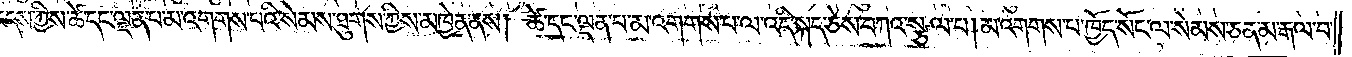འདས་ཀྱིས་ཚེ་དང་ལྡན་པ་མ་འགགས་པའི་སེམས་ཐུགས་ཀྱིས་མཁྱེན་ནས། ཚེ་དང་ལྡན་པ་མ་འགགས་པ་ལ་འདི་སྐད་ཅེས་བཀའ་སྩལ་པ། མ་འགགས་པ་ཁྱོད་སོང་ལ་སེམས་ཅན་མ་རྒལ་བ་
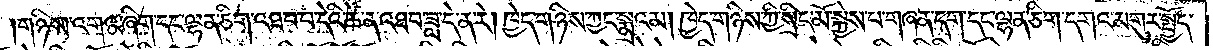གཉིས་འགའ་ཞིག་དང་ལྷན་ཅིག་འཐབ་པ་དེའི་ཚེ་ན་འཐབ་ཟླ་དེ་ན་རེ། ཁྱེད་གཉིས་ཀྱང་སྨྲའམ། ཁྱེད་གཉིས་ཀྱི་སྲིང་མོ་སྐྱེས་པ་གཞན་དག་དང་ལྷན་ཅིག་དགའ་མགུར་སྤྱོད་
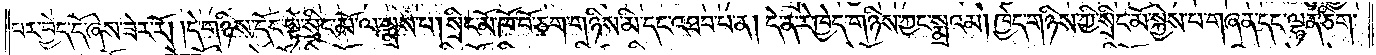པར་བྱེད་དོ་ཞེས་ཟེར་རོ། །དེ་གཉིས་དོང་སྟེ་སྲིང་མོ་ལ་སྨྲས་པ། སྲིང་མོ་ཁོ་བོ་ཅག་གཉིས་མི་དང་འཐབ་པ་ན། དེ་ན་རེ་ཁྱེད་གཉིས་ཀྱང་སྨྲའམ། ཁྱེད་གཉིས་ཀྱི་སྲིང་མོ་སྐྱེས་པ་གཞན་དང་ལྷན་ཅིག་
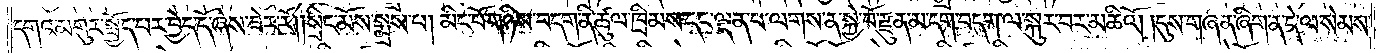དགའ་མགུར་སྤྱོད་པར་བྱེད་དོ་ཞེས་ཟེར་རོ། །སྲིང་མོས་སྨྲས་པ། མིང་པོ་གཉིས་བདག་ནི་ཚུལ་ཁྲིམས་དང་ལྡན་པ་ལགས་ན་སྐྱེ་བོ་རྫུན་མ་དག་བདག་ལ་སྐུར་བར་མཆིའོ། །དུས་གཞན་ཞིག་ན་དེ་ལ་སེམས་
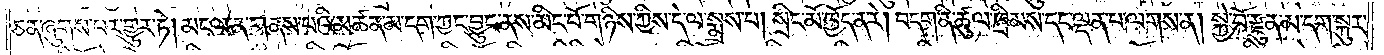ཅན་ཞུགས་པར་གྱུར་ཏེ། མངལ་ན་གནས་པའི་མཚན་མ་དག་ཀྱང་བྱུང་ནས་མིང་པོ་གཉིས་ཀྱིས་དེ་ལ་སྨྲས་པ། སྲིང་མོ་ཁྱོད་ན་རེ། བདག་ནི་ཚུལ་ཁྲིམས་དང་ལྡན་པ་ལགས་ན། སྐྱེ་བོ་རྫུན་མ་དག་སྐུར་
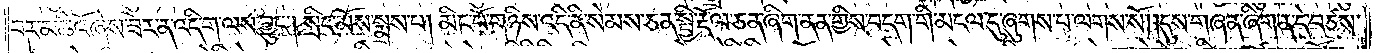བར་མཆིའོ་ཞེས་ཟེར་ན་འདི་ག་ལས་བྱུང༌། སྲིང་མོས་སྨྲས་པ། མིང་པོ་གཉིས་འདི་ནི་སེམས་ཅན་སྤྱི་རྡོལ་ཅན་ཞིག་ནན་གྱིས་བདག་གི་མངལ་དུ་ཞུགས་པ་ལགས་སོ། །དུས་གཞན་ཞིག་ན་དེ་བཙས་
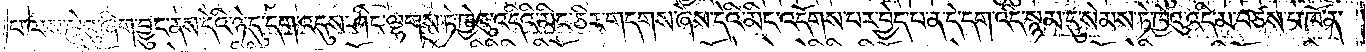པ་ལས་ཁྱེའུ་ཞིག་བྱུང་ནས་དེའི་ཉེ་དུ་དག་འདུས་ཤིང་ལྷགས་ཏེ་ཁྱེའུ་འདིའི་མིང་ཅིར་གདགས་ཞེས་དེའི་མིང་འདོགས་པར་བྱེད་པ་ན་དེ་དག་འདི་སྙམ་དུ་སེམས་ཏེ་ཁྱེའུ་འདི་མ་བཙས་པ་ཁོ་ན་
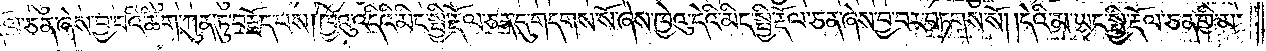རྡོལ་ཅན་ཞེས་བྱ་བའི་ཚིག་ཀུན་ཏུ་བརྗོད་པས། ཁྱེའུ་འདིའི་མིང་སྤྱི་རྡོལ་ཅན་དུ་གདགས་སོ་ཞེས་ཁྱེའུ་དེའི་མིང་སྤྱི་རྡོལ་ཅན་ཞེས་བྱ་བར་བཏགས་སོ། །དེའི་མ་ཡང་སྤྱི་རྡོལ་ཅན་གྱི་མ་
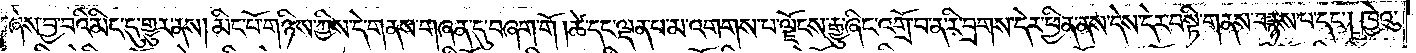ཞེས་བྱ་བའི་མིང་དུ་གྱུར་ནས། མིང་པོ་གཉིས་ཀྱིས་དེ་གནས་གཞན་དུ་བཞག་གོ །ཚེ་དང་ལྡན་པ་མ་འགགས་པ་ལྗོངས་རྒྱུ་ཞིང་འགྲོ་བ་ན་རི་བྲགས་དེར་ཕྱིན་ནས་དེས་དེར་བསྟི་གནས་བརྙས་པ་དང༌། ཁྱེའུ་
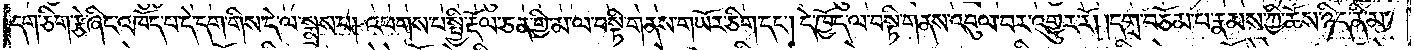དག་ཅིག་རྩེ་ཞིང་འཁོད་པ་དེ་དག་གིས་དེ་ལ་སྨྲས་པ། འཕགས་པ་སྤྱི་རྡོལ་ཅན་གྱི་མ་ལ་བསྟི་གནས་གཡོར་ཅིག་དང༌། དེ་ཁྱོད་ལ་བསྟི་གནས་འབུལ་བར་འགྱུར་རོ། །དགྲ་བཅོམ་པ་རྣམས་ཀྱི་ཆོས་ཉིད་ནི་མ་
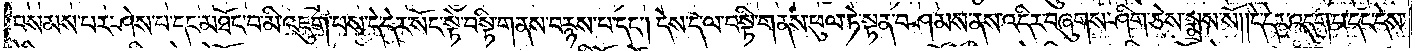བསམས་པར་ཤེས་པ་དང་མཐོང་བ་མི་འཇུག་པས་དེ་དེར་སོང་སྟེ་བསྟི་གནས་བརྙས་པ་དང༌། དེས་དེ་ལ་བསྟི་གནས་ཕུལ་ཏེ་སྟན་བཤམས་ནས་འདིར་བཞུགས་ཤིག་ཅེས་སྨྲས་སོ། །དེ་དེར་འདུག་པ་དང་དེས་
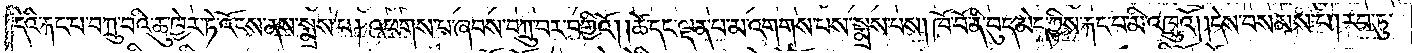དེའི་རྐང་པ་བཀྲུ་བའི་ཆུ་ཁྱེར་ཏེ་འོངས་ནས་སྨྲས་པ། འཕགས་པ་ཞབས་བཀྲུ་བར་བགྱིའོ། །ཚེ་དང་ལྡན་པ་མ་འགགས་པས་སྨྲས་པ། ཁོ་བོ་ནི་བུད་མེད་ཀྱིས་རྐང་པ་མི་འཁྲུའོ། །དེས་བསམས་པ། རབ་ཏུ་
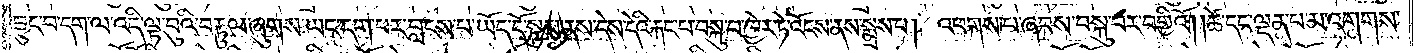བྱུང་བ་དག་ལ་འདི་ལྟ་བུའི་བརྟུལ་ཞུགས་ཡང་དག་པར་བླངས་པ་ཡོད་དོ་སྙམ་ནས་དེས་དེའི་རྐང་པ་བསྐུ་བ་ཁྱེར་ཏེ་འོངས་ནས་སྨྲས་པ། འཕགས་པ་ཞབས་བསྐུ་བར་བགྱིའོ། །ཚེ་དང་ལྡན་པ་མ་འགགས་
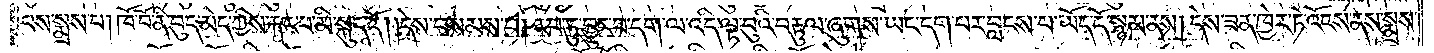པས་སྨྲས་པ། ཁོ་བོ་ནི་བུད་མེད་ཀྱིས་རྐང་པ་མི་སྐུད་དོ། །དེས་བསམས་པ། རབ་ཏུ་བྱུང་བ་དག་ལ་འདི་ལྟ་བུའི་བརྟུལ་ཞུགས་ཡང་དག་པར་བླངས་པ་ཡོད་དོ་སྙམ་ནས། དེས་ཟན་ཁྱེར་ཏེ་འོངས་ནས་སྨྲས་
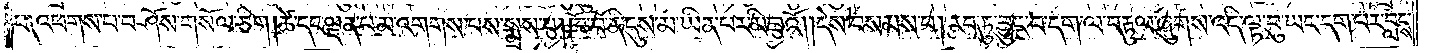པ༑ འཕགས་པ་བཤོས་གསོལ་ཅིག །ཚེ་དང་ལྡན་པ་མ་འགགས་པས་སྨྲས་པ། ཁོ་བོ་ནི་དུས་མ་ཡིན་པར་མི་ཟའོ། །དེས་བསམས་པ། རབ་ཏུ་བྱུང་བ་དག་ལ་བརྟུལ་ཞུགས་འདི་ལྟ་བུ་ཡང་དག་པར་བླངས་
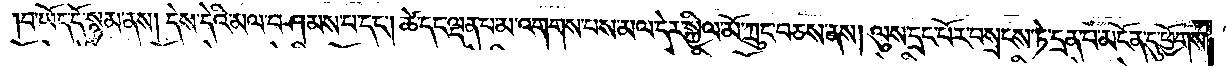བ་ཡོད་དོ་སྙམ་ནས། དེས་དེའི་མལ་བཤམས་པ་དང༌། ཚེ་དང་ལྡན་པ་མ་འགགས་པས་མལ་དེར་སྐྱིལ་མོ་ཀྲུང་བཅས་ནས། ལུས་དྲང་པོར་བསྲངས་ཏེ་དྲན་པ་མངོན་དུ་ཕྱོགས་
